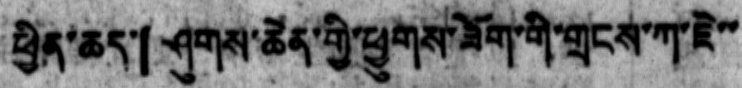ཕྱིན་ཆད་「ཤུགས་ཆེན་གྱི་ཕྱུགས་ཟོག་གི་གྲངས་ཀ་ཇེ་་
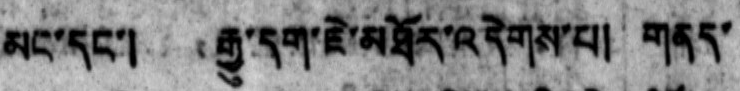མང་དང་། རྒྱུ་དག་ཇེ་མཐོར་འདེགས་པ། གནད་
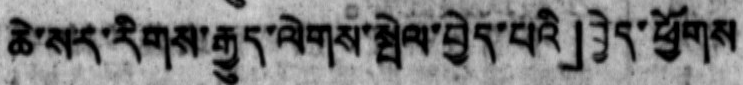ཆེ་སར་རིགས་རྒྱུད་ལེགས་སྤེལ་བྱེད་པའི」བྱེད་ཕྱོགས
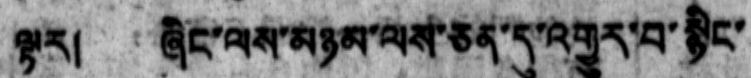སྟར། ཞིང་ལས་མཉམ་ལས་ཅན་དུ་འགྱུར་བ་སྙིང་
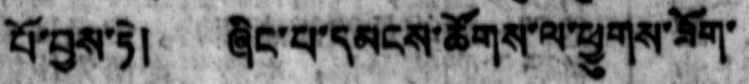པོ་བྱས་ཏེ། ཞིང་པ་དམངས་ཚོགས་ལ་ཕྱུགས་ཟོག་
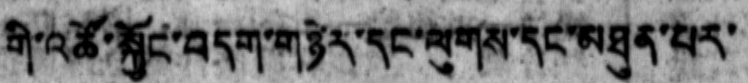གི་འཚོ་སྐྱོང་བདག་གཉེར་དང་ལུགས་དང་མཐུན་པར་
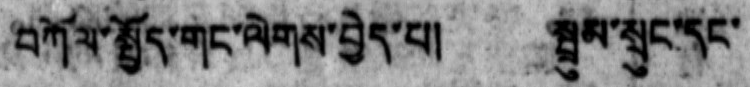བཀོལ་སྤྱོད་གང་ལེགས་བྱེད་པ། སྦྲུམ་སྲུང་དང་
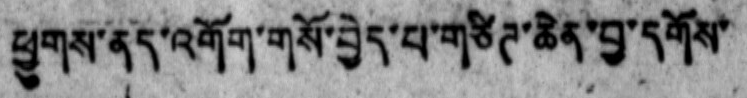ཕྱུགས་ནད་འགོག་གསོ་བྱེད་པ་གཙིཊ་ཆེན་བྱ་དགོས་
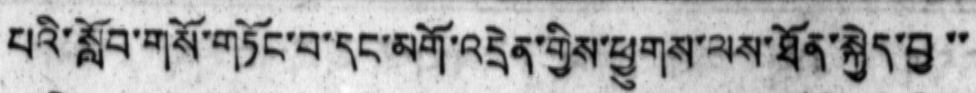པའི་སློབ་གསོ་གཏོང་བ་དང་མགོ་འདྲེན་གྱིས་ཕྱུགས་ལས་ཐོན་སྐྱེད་བྱ་་
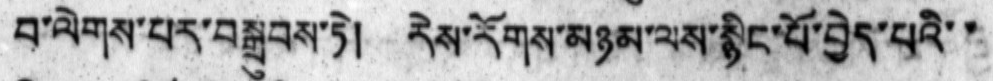བ་ལེགས་པར་བསྒྲུབས་ཏེ། རེས་རོགས་མཉམ་ལས་སྙིང་པོ་བྱེད་པའི་་
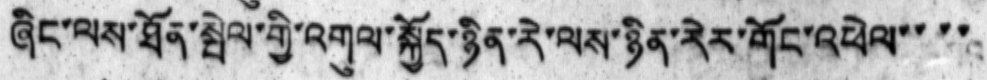ཞིང་ལས་ཐོན་སྤེལ་གྱི་འགུལ་སྐྱོད་ཉིན་རེ་ལས་ཉིན་རེར་གོང་འཕེལ་་་་
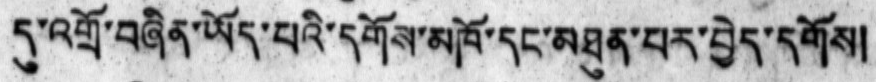དུ་འགྲོ་བཞིན་ཡོད་པའི་དགོས་མཁོ་དང་མཐུན་པར་བྱེད་དགོས།
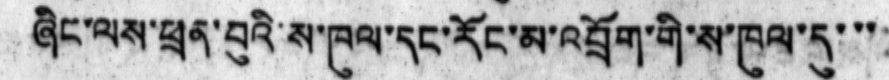ཞིང་ལས་ཕྲན་བུའི་ས་ཁུལ་དང་རོང་མ་འབྲོག་གི་ས་ཁུལ་དུ་་་
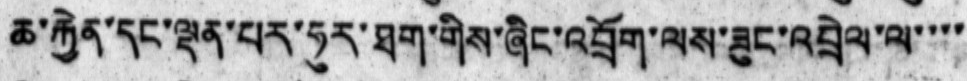ཆ་རྐྱེན་དང་ལྡན་པར་ཧུར་ཐག་གིས་ཞིང་འབྲོག་ལས་ཟུང་འབྲེལ་ལ་་་་
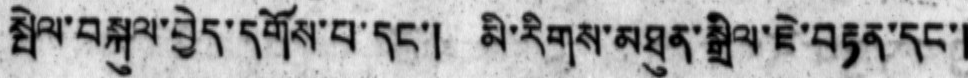སྤེལ་བསྐུལ་བྱེད་དགོས་པ་དང་། མི་རིགས་མཐུན་སྒྲིལ་ཇེ་བརྟན་དང་།
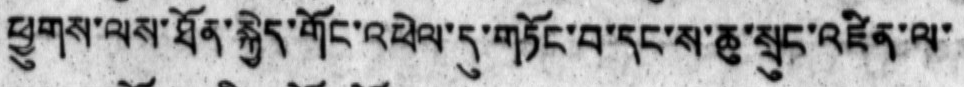ཕྱུགས་ལས་ཐོན་སྐྱེད་གོང་འཕེལ་དུ་གཏོང་བ་དང་ས་ཆུ་སྲུང་འཛིན་ལ་
